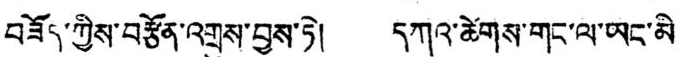བཟོད་ཀྱིས་བརྩོན་འགྲུས་བྱས་ཏེ། དཀའ་ཚེགས་གང་ལ་ཡང་མི་
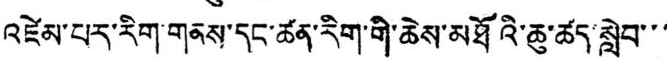འཛེམ་པར་རིག་གནས་དང་ཚན་རིག་གི་ཆེས་མཐོའི་ཆུ་ཚད་སླེབ་་་་
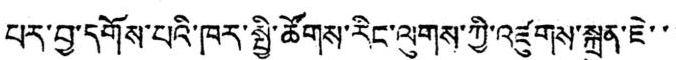པར་བྱ་དགོས་པའི་ཁར་སྤྱི་ཚོགས་རིང་ལུགས་ཀྱི་འཛུགས་སྐྲུན་ཇེ་་་
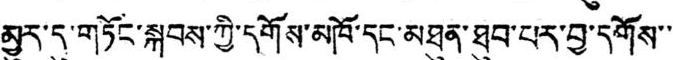མྱུར་དུ་གཏོང་སྐབས་ཀྱི་དགོས་མཁོ་དང་མཐུན་ཐུབ་པར་བྱ་དགོས་་་
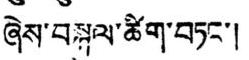ཞེས་བསྐུལ་ཚིག་བཏང་།
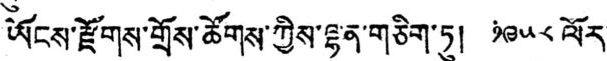ཡོངས་རྫོགས་གྲོས་ཚོགས་ཀྱིས་ལྷན་གཅིག་ཏུ། ༡༩༥༨ ལོར་
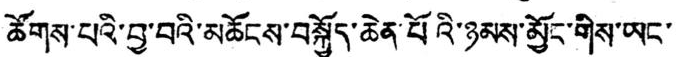ཚོགས་པའི་བྱ་བའི་མཆོངས་བསྐྱོད་ཆེན་པོའི་ཉམས་མྱོང་གིས་ཡང་་
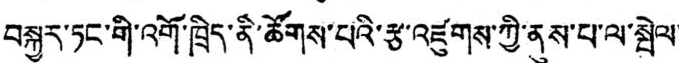བསྐྱར་ཏང་གི་འགོ་ཁྲིད་ནི་ཚོགས་པའི་རྩ་འཛུགས་ཀྱི་ནུས་པ་ལ་སྤེལ་
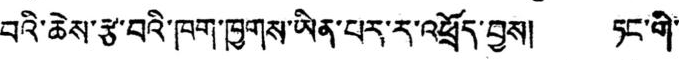བའི་ཆེས་རྩ་བའི་ཁག་ཁྱགས་ཡིན་པར་ར་འཕྲོད་བྱས། ཏང་གི་
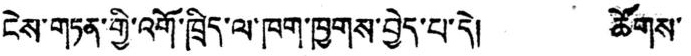ངེས་གཏན་གྱི་འགོ་ཁྲིད་ལ་ཁག་ཁྱགས་བྱེད་པ་དེ། ཚོགས་
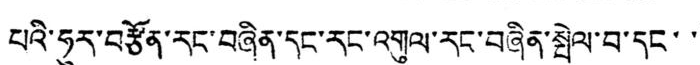པའི་ཧུར་བརྩོན་རང་བཞིན་དང་རང་འགུལ་རང་བཞིན་སྤེལ་བ་དང་་
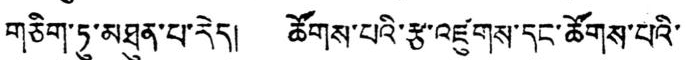གཅིག་ཏུ་མཐུན་པ་རེད། ཚོགས་པའི་རྩ་འཛུགས་དང་ཚོགས་པའི་
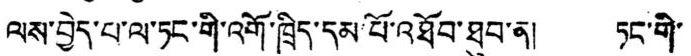ལས་བྱེད་པ་ལ་ཏང་གི་འགོ་ཁྲིད་དམ་པོ་འཐོབ་ཐུབ་ན། ཏང་གི་
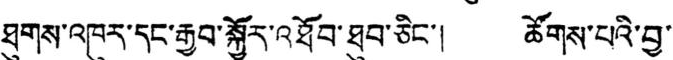ཐུགས་འཁུར་དང་རྒྱབ་སྐྱོར་འཐོབ་ཐུབ་ཅིང་། ཚོགས་པའི་བྱ་
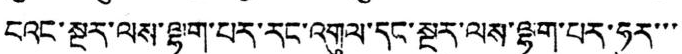ངའང་སྔར་ལས་ལྷག་པར་རང་འགུལ་དང་སྔར་ལས་ལྷག་པར་ཧུར་་་
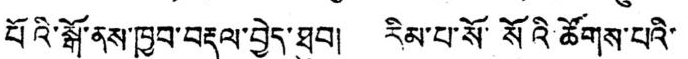པོའི་སྒོ་ནས་ཁྱབ་བརྡལ་བྱེད་ཐུབ། རིམ་པ་སོ་སོའི་ཚོགས་པའི་
